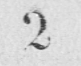2
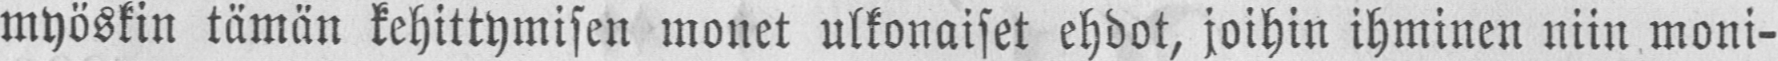myöskin tämän kehittymisen monet ulkonaiset ehdot, joihin ihminen niin moni-
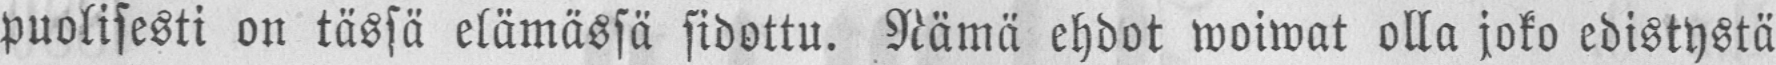puolisesti on tässä elämässä sidottu. Nämä ehdot woiwat olla joko edistystä
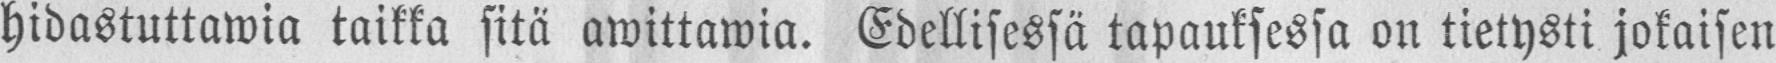hidastuttawia taikka sitä awittawia. Edellisessä tapauksessa on tietysti jokaisen
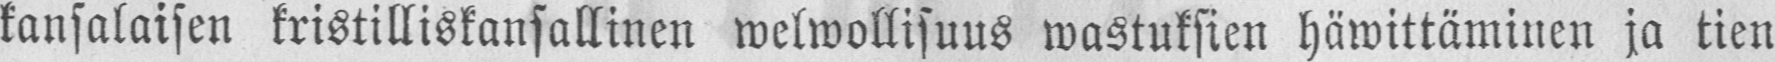kansalaisen kristilliskansallinen welwollisuus wastuksien häwittäminen ja tien
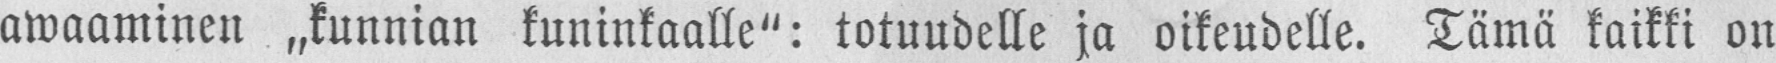awaaminen „kunnian kuninkaalle": totuudelle ja oikeudelle. Tämä kaikki on
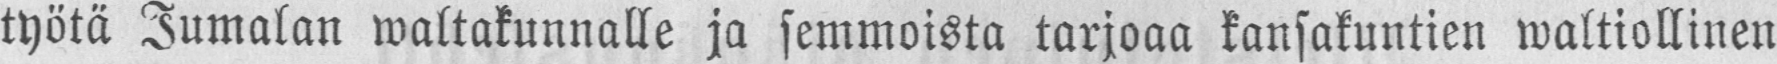työtä Jumalan waltakunnalle ja semmoista tarjoaa kansakuntien waltiollinen
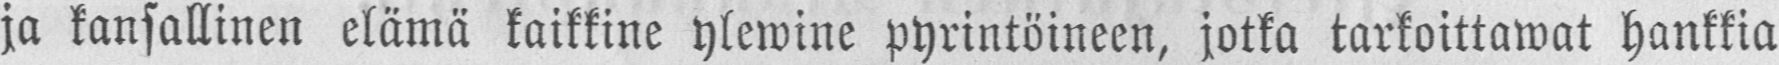ja kansallinen elämä kaikkine ylewine pyrintöineen, jotka tarkoittawat hankkia
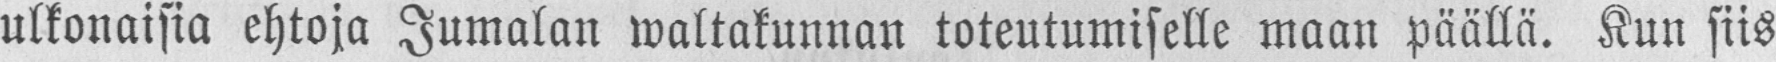ulkonaisia ehtoja Jumalan waltakunnan toteutumiselle maan päällä. Kun siis
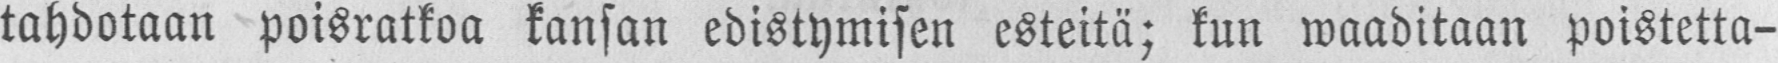tahdotaan poisratkoa kansan edistymisen esteitä; kun waaditaan poistetta-
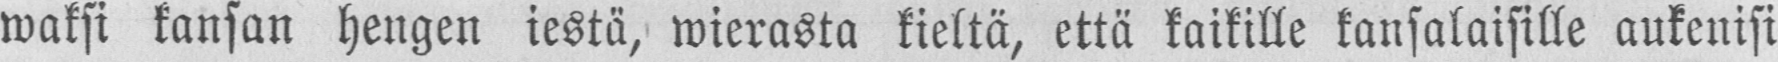waksi kansan hengen iestä, wierasta kieltä, että kaikille kansalaisille aukenisi
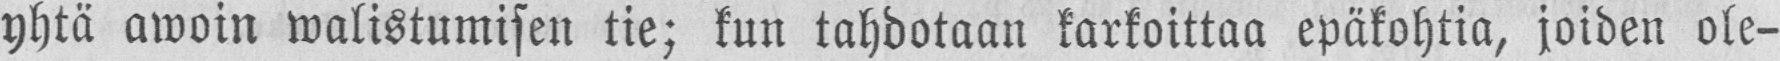yhtä awoin walistumisen tie; kun tahdotaan karkoittaa epäkohtia, joiden ole-
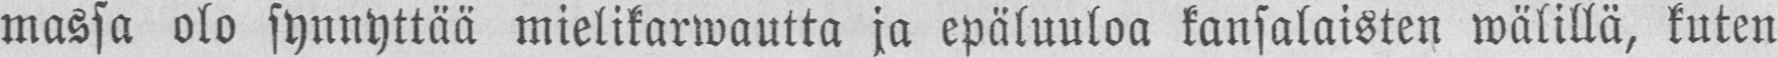massa olo synnyttää mielikarwautta ja epäluuloa kansalaisten wälillä, kuten
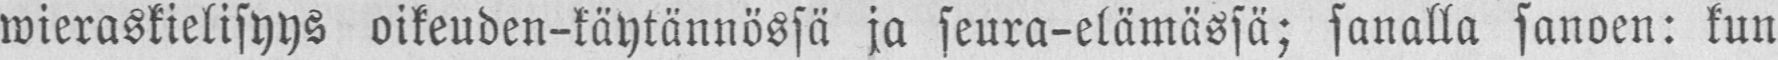wieraskielisyys oikeuden-käytännössä ja seura-elämässä; sanalla sanoen: kun
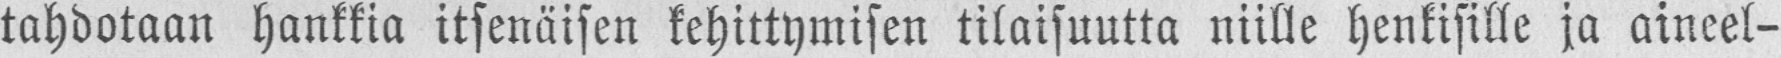tahdotaan hankkia itsenäisen kehittymisen tilaisuutta niille henkisille ja aineel-
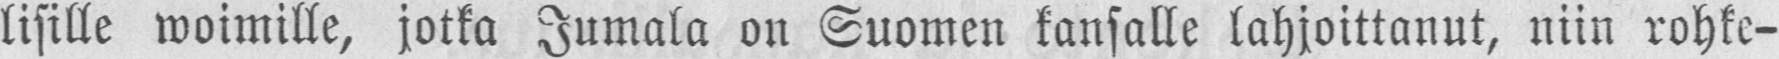lisille woimille, jotka Jumala on Suomen kansalle lahjoittanut, niin rohke-
